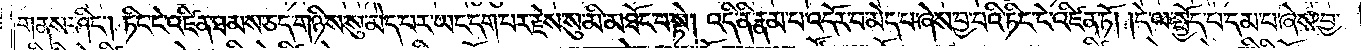གནས་ཤིང༌། ཏིང་ངེ་འཛིན་ཐམས་ཅད་གཉིས་སུ་མེད་པར་ཡང་དག་པར་རྗེས་སུ་མི་མཐོང་བ་སྟེ། འདི་ནི་རྣམ་པ་འདོར་བ་མེད་པ་ཞེས་བྱ་བའི་ཏིང་ངེ་འཛིན་ཏོ། །དེ་ལ་སྤྱོད་པ་དམ་པ་ཞེས་བྱ་
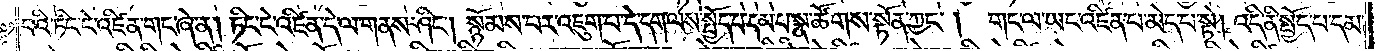བའི་ཏིང་ངེ་འཛིན་གང་ཞེ་ན། ཏིང་ངེ་འཛིན་དེ་ལ་གནས་ཤིང༌། སྙོམས་པར་འཇུག་པ་དེ་ལས་སྤྱོད་པ་དམ་པ་སྣ་ཚོགས་སྟོན་ཀྱང༌། གང་ལ་ཡང་འཛིན་པ་མེད་པ་སྟེ། འདི་ནི་སྤྱོད་པ་དམ་
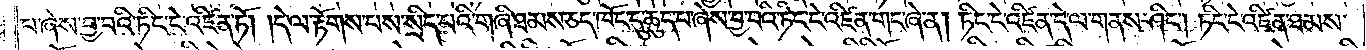པ་ཞེས་བྱ་བའི་ཏིང་ངེ་འཛིན་ཏོ། །དེ་ལ་རྟོགས་པས་སྲིད་པའི་གཞི་ཐམས་ཅད་ཁོང་དུ་ཆུད་པ་ཞེས་བྱ་བའི་ཏིང་ངེ་འཛིན་གང་ཞེ་ན། ཏིང་ངེ་འཛིན་དེ་ལ་གནས་ཤིང༌། ཏིང་ངེ་འཛིན་ཐམས་
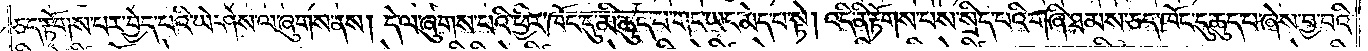ཅད་རྟོགས་པར་བྱེད་པའི་ཡེ་ཤེས་ལ་ཞུགས་ནས། དེ་ལ་ཞུགས་པའི་ཕྱིར་ཁོང་དུ་མི་ཆུད་པ་གང་ཡང་མེད་པ་སྟེ། འདི་ནི་རྟོགས་པས་སྲིད་པ་གཞི་ཐམས་ཅད་ཁོང་དུ་ཆུད་པ་ཞེས་བྱ་བའི་
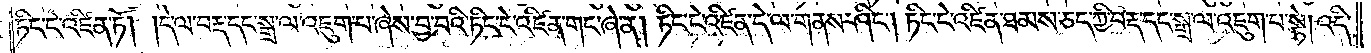ཏིང་ངེ་འཛིན་ཏོ། །དེ་ལ་བརྡ་དང་སྒྲ་ལ་འཇུག་པ་ཞེས་བྱ་བའི་ཏིང་ངེ་འཛིན་གང་ཞེ་ན། ཏིང་ངེ་འཛིན་དེ་ལ་གནས་ཤིང༌། ཏིང་ངེ་འཛིན་ཐམས་ཅད་ཀྱི་བརྡ་དང་སྒྲ་ལ་འཇུག་པ་སྟེ། འདི་
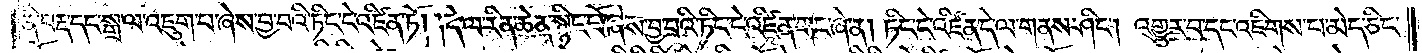ནི་བརྡ་དང་སྒྲ་ལ་འཇུག་པ་ཞེས་བྱ་བའི་ཏིང་ངེ་འཛིན་ཏོ། །དེ་ལ་རིན་ཆེན་སྙིང་པོ་ཞེས་བྱ་བའི་ཏིང་ངེ་འཛིན་གང་ཞེ་ན། ཏིང་ངེ་འཛིན་དེ་ལ་གནས་ཤིང༌། འགྱུར་བ་དང་འཇིགས་པ་མེད་ཅིང་
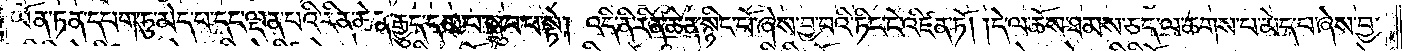ཡོན་ཏན་དཔག་ཏུ་མེད་པ་དང་ལྡན་པའི་རིན་ཆེན་རྒྱུད་དམ་པ་སྒྲུབ་པ་སྟེ། འདི་ནི་རིན་ཆེན་སྙིང་པོ་ཞེས་བྱ་བའི་ཏིང་ངེ་འཛིན་ཏོ། །དེ་ལ་ཆོས་ཐམས་ཅད་ལ་ཆགས་པ་མེད་པ་ཞེས་བྱ་
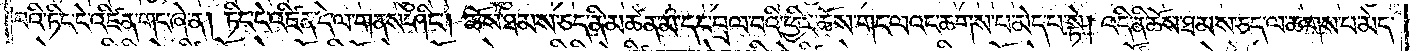བའི་ཏིང་ངེ་འཛིན་གང་ཞེ་ན། ཏིང་ངེ་འཛིན་དེ་ལ་གནས་ཤིང༌། ཆོས་ཐམས་ཅད་ནི་མཚན་མ་དང་བྲལ་བའི་ཕྱིར་ཆོས་གང་ལའང་ཆགས་པ་མེད་པ་སྟེ། འདི་ནི་ཆོས་ཐམས་ཅད་ལ་ཆགས་པ་མེད་
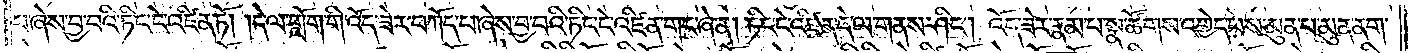པ་ཞེས་བྱ་བའི་ཏིང་ངེ་འཛིན་ཏོ། །དེ་ལ་གློག་གི་འོད་ཟེར་བཀོད་པ་ཞེས་བྱ་བའི་ཏིང་ངེ་འཛིན་གང་ཞེ་ན། ཏིང་ངེ་འཛིན་དེ་ལ་གནས་ཤིང༌། འོད་ཟེར་རྣམ་པ་སྣ་ཚོགས་འགྱེད་པས་མུན་པ་མུན་ནག་
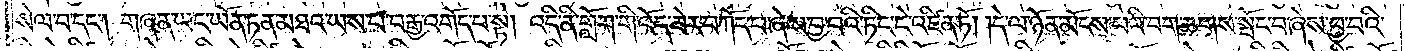སེལ་བ་དང༌། གཞན་ཡང་ཡོན་ཏན་མཐའ་ཡས་པ་བརྒྱ་འགོད་པ་སྟེ། འདི་ནི་གློག་གི་འོད་ཟེར་བཀོད་པ་ཞེས་བྱ་བའི་ཏིང་ངེ་འཛིན་ཏོ། །དེ་ལ་ཉོན་མོངས་པའི་བག་ཆགས་སྤོང་བ་ཞེས་བྱ་བའི་
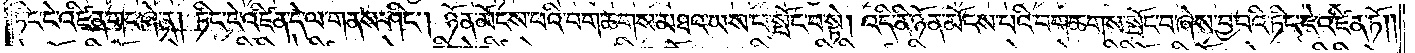ཏིང་ངེ་འཛིན་གང་ཞེ་ན། ཏིང་ངེ་འཛིན་དེ་ལ་གནས་ཤིང༌། ཉོན་མོངས་པའི་བག་ཆགས་མཐའ་ཡས་པ་སྤོང་བ་སྟེ། འདི་ནི་ཉོན་མོངས་པའི་བག་ཆགས་སྤོང་བ་ཞེས་བྱ་བའི་ཏིང་ངེ་འཛིན་ཏོ། །
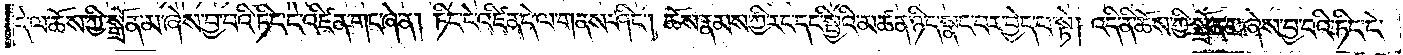དེ་ལ་ཆོས་ཀྱི་སྒྲོན་མ་ཞེས་བྱ་བའི་ཏིང་ངེ་འཛིན་གང་ཞེ་ན། ཏིང་ངེ་འཛིན་དེ་ལ་གནས་ཤིང༌། ཆོས་རྣམས་ཀྱི་རང་དང་སྤྱིའི་མཚན་ཉིད་སྣང་བར་བྱེད་པ་སྟེ། འདི་ནི་ཆོས་ཀྱི་སྒྲོན་མ་ཞེས་བྱ་བའི་ཏིང་ངེ་
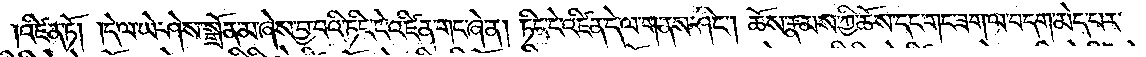འཛིན་ཏོ། །དེ་ལ་ཡེ་ཤེས་སྒྲོན་མ་ཞེས་བྱ་བའི་ཏིང་ངེ་འཛིན་གང་ཞེ་ན། ཏིང་ངེ་འཛིན་དེ་ལ་གནས་ཤིང༌། ཆོས་རྣམས་ཀྱི་ཆོས་དང་གང་ཟག་ལ་བདག་མེད་པར་
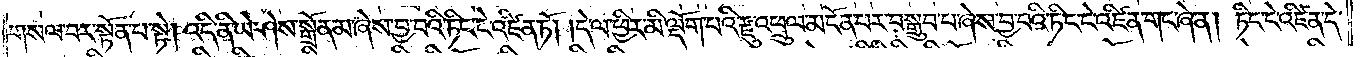གསལ་བར་སྟོན་པ་སྟེ། འདི་ནི་ཡེ་ཤེས་སྒྲོན་མ་ཞེས་བྱ་བའི་ཏིང་ངེ་འཛིན་ཏོ། །དེ་ལ་ཕྱིར་མི་ལྡོག་པའི་རྫུ་འཕྲུལ་མངོན་པར་བསྒྲུབ་པ་ཞེས་བྱ་བའི་ཏིང་ངེ་འཛིན་གང་ཞེ་ན། ཏིང་ངེ་འཛིན་དེ་
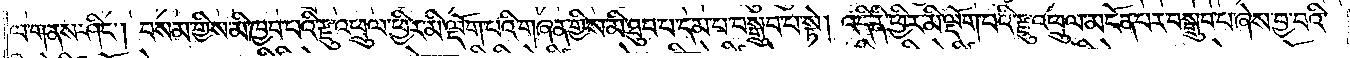ལ་གནས་ཤིང༌། བསམ་གྱིས་མི་ཁྱབ་པའི་རྫུ་འཕྲུལ་ཕྱིར་མི་ལྡོག་པའི་གཞན་གྱིས་མི་ཐུབ་པ་དམ་པ་བསྒྲུབ་པ་སྟེ། འདི་ནི་ཕྱིར་མི་ལྡོག་པའི་རྫུ་འཕྲུལ་མངོན་པར་བསྒྲུབ་པ་ཞེས་བྱ་བའི་
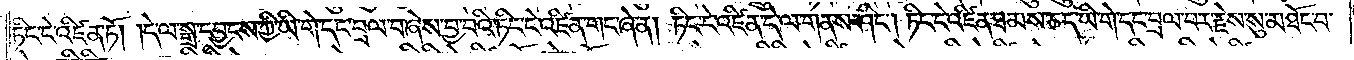ཏིང་ངེ་འཛིན་ཏོ། །དེ་ལ་སྒྲ་དབྱངས་ཀྱི་ཡི་གེ་དང་བྲལ་བ་ཞེས་བྱ་བའི་ཏིང་ངེ་འཛིན་གང་ཞེ་ན། ཏིང་ངེ་འཛིན་དེ་ལ་གནས་ཤིང༌། ཏིང་ངེ་འཛིན་ཐམས་ཅད་ཡི་གེ་དང་བྲལ་བར་རྗེས་སུ་མཐོང་བ་
